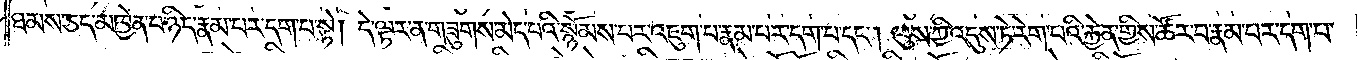ཐམས་ཅད་མཁྱེན་པ་ཉིད་རྣམ་པར་དག་པ་སྟེ། དེ་ལྟར་ན་གཟུགས་མེད་པའི་སྙོམས་པར་འཇུག་པ་རྣམ་པར་དག་པ་དང༌། ལུས་ཀྱི་འདུས་ཏེ་རེག་པའི་རྐྱེན་གྱིས་ཚོར་བ་རྣམ་པར་དག་པ་
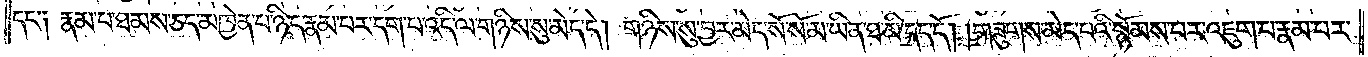དང་༑ རྣམ་པ་ཐམས་ཅད་མཁྱེན་པ་ཉིད་རྣམ་པར་དག་པ་འདི་ལ་གཉིས་སུ་མེད་དེ། གཉིས་སུ་བྱར་མེད་སོ་སོ་མ་ཡིན་ཐ་མི་དད་དོ། །གཟུགས་མེད་པའི་སྙོམས་པར་འཇུག་པ་རྣམ་པར་
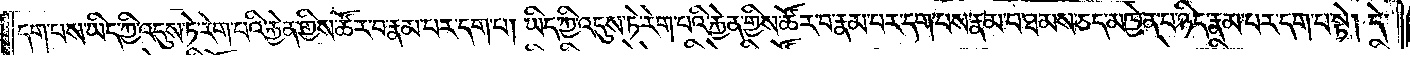དག་པས་ཡིད་ཀྱི་འདུས་ཏེ་རེག་པའི་རྐྱེན་གྱིས་ཚོར་བ་རྣམ་པར་དག་པ། ཡིད་ཀྱི་འདུས་ཏེ་རེག་པའི་རྐྱེན་གྱིས་ཚོར་བ་རྣམ་པར་དག་པས་རྣམ་པ་ཐམས་ཅད་མཁྱེན་པ་ཉིད་རྣམ་པར་དག་པ་སྟེ། དེ་
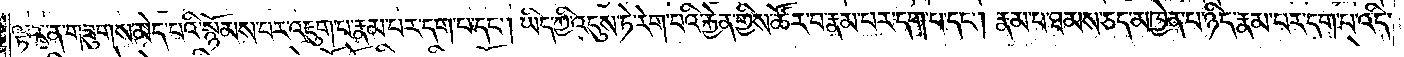ལྟར་ན་གཟུགས་མེད་པའི་སྙོམས་པར་འཇུག་པ་རྣམ་པར་དག་པ་དང༌། ཡིད་ཀྱི་འདུས་ཏེ་རེག་པའི་རྐྱེན་གྱིས་ཚོར་བ་རྣམ་པར་དག་པ་དང༌། རྣམ་པ་ཐམས་ཅད་མཁྱེན་པ་ཉིད་རྣམ་པར་དག་པ་འདི་
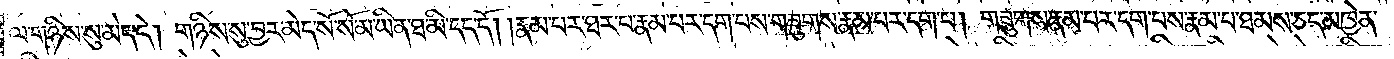ལ་གཉིས་སུ་མེད་དེ། གཉིས་སུ་བྱར་མེད་སོ་སོ་མ་ཡིན་ཐ་མི་དད་དོ། །རྣམ་པར་ཐར་པ་རྣམ་པར་དག་པས་གཟུགས་རྣམ་པར་དག་པ། གཟུགས་རྣམ་པར་དག་པས་རྣམ་པ་ཐམས་ཅད་མཁྱེན་
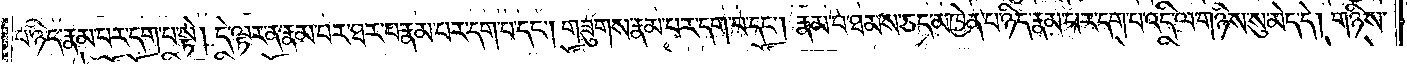པ་ཉིད་རྣམ་པར་དག་པ་སྟེ། དེ་ལྟར་ན་རྣམ་པར་ཐར་པ་རྣམ་པར་དག་པ་དང༌། གཟུགས་རྣམ་པར་དག་པ་དང༌། རྣམ་པ་ཐམས་ཅད་མཁྱེན་པ་ཉིད་རྣམ་པར་དག་པ་འདི་ལ་གཉིས་སུ་མེད་དེ། གཉིས་
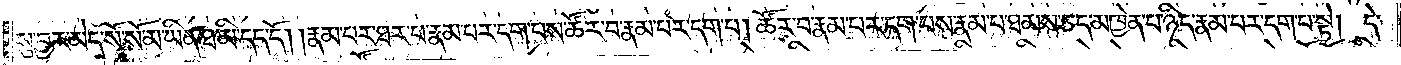སུ་བྱར་མེད་སོ་སོ་མ་ཡིན་ཐ་མི་དད་དོ། །རྣམ་པར་ཐར་པ་རྣམ་པར་དག་པས་ཚོར་བ་རྣམ་པར་དག་པ། ཚོར་བ་རྣམ་པར་དག་པས་རྣམ་པ་ཐམས་ཅད་མཁྱེན་པ་ཉིད་རྣམ་པར་དག་པ་སྟེ། དེ་
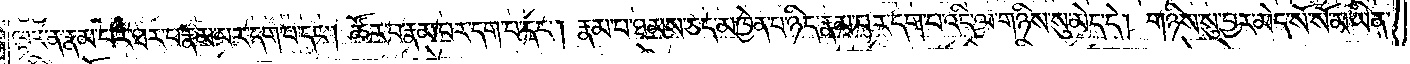ལྟར་ན་རྣམ་པར་ཐར་པ་རྣམ་པར་དག་པ་དང༌། ཚོར་བ་རྣམ་པར་དག་པ་དང༌། རྣམ་པ་ཐམས་ཅད་མཁྱེན་པ་ཉིད་རྣམ་པར་དག་པ་འདི་ལ་ཉིས་སུ་མེད་དེ། གཉིས་སུ་བྱར་མེད་སོ་སོ་མ་ཡིན་
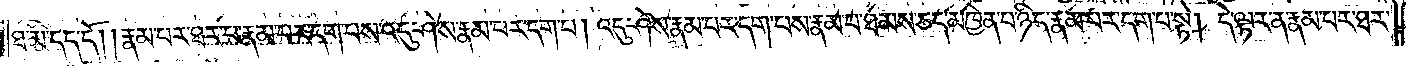ཐ་མི་དད་དོ། །རྣམ་པར་ཐར་པ་རྣམ་པར་དག་པས་འདུ་ཤེས་རྣམ་པར་དག་པ། འདུ་ཤེས་རྣམ་པར་དག་པས་རྣམ་པ་ཐམས་ཅད་མཁྱེན་པ་ཉིད་རྣམ་པར་དག་པ་སྟེ། དེ་ལྟར་ན་རྣམ་པར་ཐར་
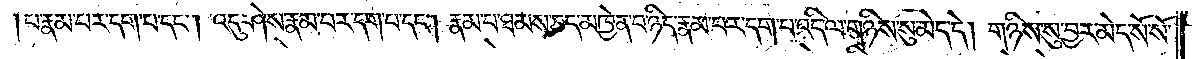པ་རྣམ་པར་དག་པ་དང༌། འདུ་ཤེས་རྣམ་པར་དག་པ་དང༌། རྣམ་པ་ཐམས་ཅད་མཁྱེན་པ་ཉིད་རྣམ་པར་དག་པ་འདི་ལ་གཉིས་སུ་མེད་དེ། གཉིས་སུ་བྱར་མེད་སོ་སོ་
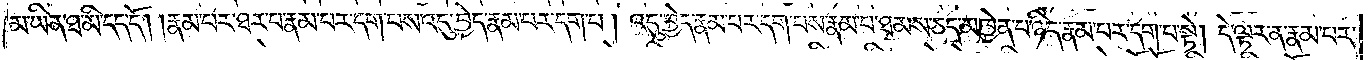མ་ཡིན་ཐ་མི་དད་དོ། །རྣམ་པར་ཐར་བ་རྣམ་པར་དག་པས་འདུ་བྱེད་རྣམ་པར་དག་པ། འདུ་བྱེད་རྣམ་པར་དག་པས་རྣམ་པ་ཐམས་ཅད་མཁྱེན་པ་ཉིད་རྣམ་པར་དག་པ་སྟེ། དེ་ལྟར་ན་རྣམ་པར་
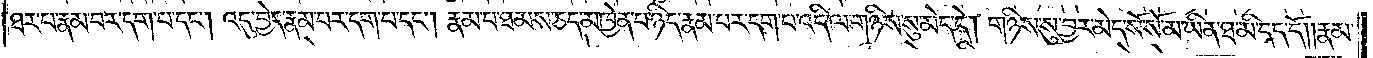ཐར་པ་རྣམ་པར་དག་པ་དང༌། འདུ་བྱེད་རྣམ་པར་དག་པ་དང༌། རྣམ་པ་ཐམས་ཅད་མཁྱེན་པ་ཉིད་རྣམ་པར་དག་པ་འདི་ལ་གཉིས་སུ་མེད་དེ། གཉིས་སུ་བྱར་མེད་སོ་སོ་མ་ཡིན་ཐ་མི་དད་དོ། །རྣམ་
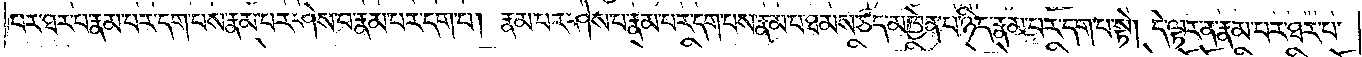པར་ཐར་པ་རྣམ་པར་དག་པས་རྣམ་པར་ཤེས་པ་རྣམ་པར་དག་པ། རྣམ་པར་ཤེས་པ་རྣམ་པར་དག་པས་རྣམ་པ་ཐམས་ཅད་མཁྱེན་པ་ཉིད་རྣམ་པར་དག་པ་སྟེ། དེ་ལྟར་ན་རྣམ་པར་ཐར་པ་
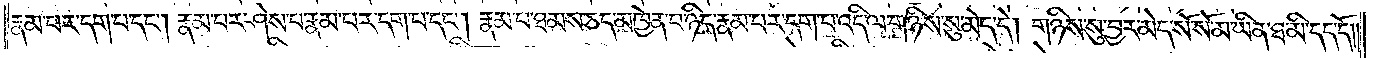རྣམ་པར་དག་པ་དང༌། རྣམ་པར་ཤེས་པ་རྣམ་པར་དག་པ་དང༌། རྣམ་པ་ཐམས་ཅད་མཁྱེན་པ་ཉིད་རྣམ་པར་དག་པ་འདི་ལ་གཉིས་སུ་མེད་དེ། གཉིས་སུ་བྱར་མེད་སོ་སོ་མ་ཡིན་ཐ་མི་དད་དོ། །
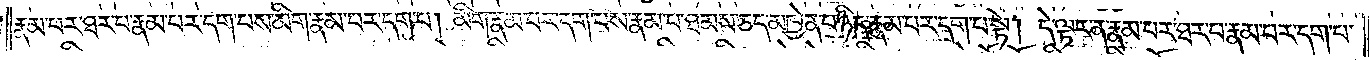རྣམ་པར་ཐར་པ་རྣམ་པར་དག་པས་མིག་རྣམ་པར་དག་པ། མིག་རྣམ་པར་དག་པས་རྣམ་པ་ཐམས་ཅད་མཁྱེན་པ་ཉིད་རྣམ་པར་དག་པ་སྟེ། དེ་ལྟར་ན་རྣམ་པར་ཐར་པ་རྣམ་པར་དག་པ་
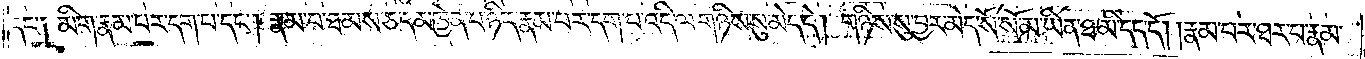དང་༑ མིག་རྣམ་པར་དག་པ་དང༌། རྣམ་པ་ཐམས་ཅད་མཁྱེན་པ་ཉིད་རྣམ་པར་དག་པ་འདི་ལ་གཉིས་སུ་མེད་དེ། གཉིས་སུ་བྱར་མེད་སོ་སོ་མ་ཡིན་ཐ་མི་དད་དོ། །རྣམ་པར་ཐར་པ་རྣམ་
